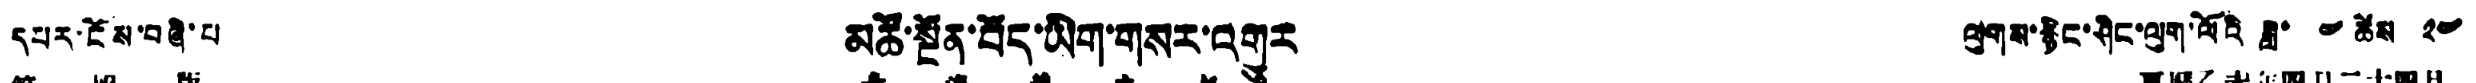དཔར་ངོས་བཞི་པ མཚོ་སྔོན་བོད་ཡིག་གསར་འགྱུར ལུགས་རྙིང་ཤིང་ལུག་ལོའི ཟླ་ ༤ ཚེས ༢༤
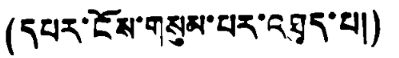(དཔར་ངོས་གསུམ་པར་འཐུད་པ།)
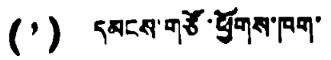(༡) དམངས་གཙོ་ཕྱོགས་ཁག་
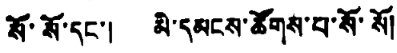སོ་སོ་དང་། མི་དམངས་ཚོགས་པ་སོ་སོ།
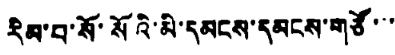རིམ་པ་སོ་སོའི་མི་དམངས་དམངས་གཙོ་་་
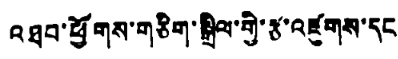འཐབ་ཕྱོགས་གཅིག་སྒྲིལ་གྱི་རྩ་འཛུགས་དང
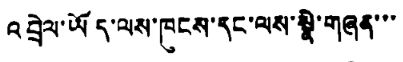འབྲེལ་ཡོད་ལས་ཁུངས་དང་ལས་སྣེ་གཞན་་་
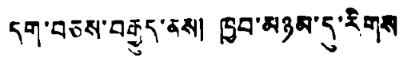དག་བཅས་བརྒྱུད་ནས། ཁྱབ་མཉམ་དུ་རིགས
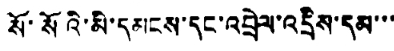སོ་སོའི་མི་དམངས་དང་འབྲེལ་འདྲིས་དམ་་་
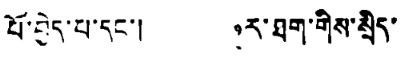པོ་བྱེད་པ་དང་། ཧུར་ཐག་གིས་སྲིད་
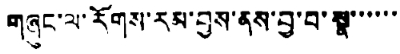གཞུང་ལ་རོགས་རམ་བྱས་ནས་བྱ་བ་སྣ་་་་་་
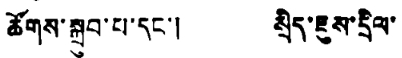ཚོགས་སྒྲུབ་པ་དང་། སྲིད་ཇུས་དྲིལ་
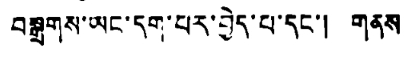བསྒྲགས་ཡང་དག་པར་བྱེད་པ་དང་། གནས
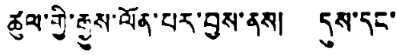ཚུལ་གྱི་རྒྱུས་ལོན་པར་བྱས་ནས། དུས་དང་
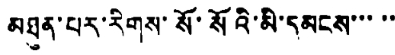མཐུན་པར་རིགས་སོ་སོའི་མི་དམངས་་་་་
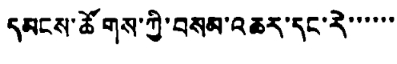དམངས་ཚོགས་ཀྱི་བསམ་འཆར་དང་རེ་་་་་་
